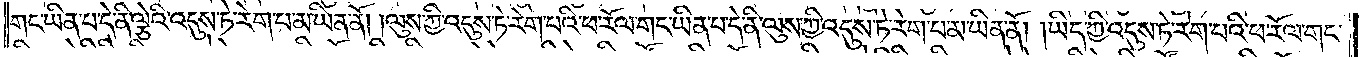གང་ཡིན་པ་དེ་ནི་ལྕེའི་འདུས་ཏེ་རེག་པ་མ་ཡིན་ནོ། །ལུས་ཀྱི་འདུས་ཏེ་རེག་པའི་ཕ་རོལ་གང་ཡིན་པ་དེ་ནི་ལུས་ཀྱི་འདུས་ཏེ་རེག་པ་མ་ཡིན་ནོ། །ཡིད་ཀྱི་འདུས་ཏེ་རེག་པའི་ཕ་རོལ་གང་
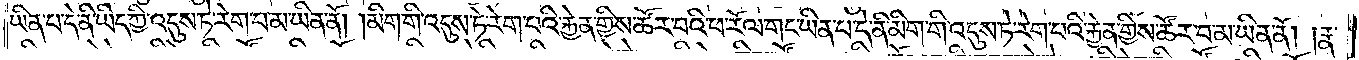ཡིན་པ་དེ་ནི་ཡིད་ཀྱི་འདུས་ཏེ་རེག་པ་མ་ཡིན་ནོ། །མིག་གི་འདུས་ཏེ་རེག་པའི་རྐྱེན་གྱིས་ཚོར་བའི་ཕ་རོལ་གང་ཡིན་པ་དེ་ནི་མིག་གི་འདུས་ཏེ་རེག་པའི་རྐྱེན་གྱིས་ཚོར་བ་མ་ཡིན་ནོ། །རྣ་
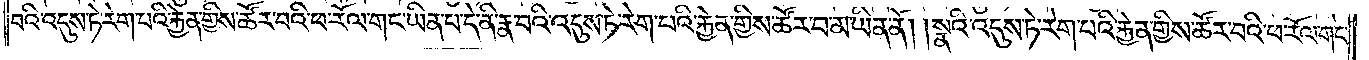བའི་འདུས་ཏེ་རེག་པའི་རྐྱེན་གྱིས་ཚོར་བའི་ཕ་རོལ་གང་ཡིན་པ་དེ་ནི་རྣ་བའི་འདུས་ཏེ་རེག་པའི་རྐྱེན་གྱིས་ཚོར་བ་མ་ཡིན་ནོ། །སྣའི་འདུས་ཏེ་རེག་པའི་རྐྱེན་གྱིས་ཚོར་བའི་ཕ་རོལ་གང་
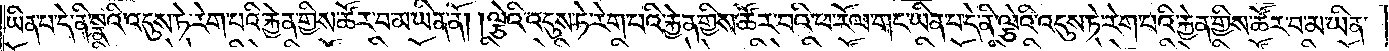ཡིན་པ་དེ་ནི་སྣའི་འདུས་ཏེ་རེག་པའི་རྐྱེན་གྱིས་ཚོར་བ་མ་ཡིན་ནོ། །ལྕེའི་འདུས་ཏེ་རེག་པའི་རྐྱེན་གྱིས་ཚོར་བའི་ཕ་རོལ་གང་ཡིན་པ་དེ་ནི་ལྕེའི་འདུས་ཏེ་རེག་པའི་རྐྱེན་གྱིས་ཚོར་བ་མ་ཡིན་
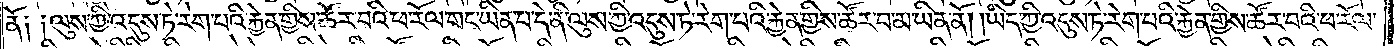ནོ༑ ༑ལུས་ཀྱི་འདུས་ཏེ་རེག་པའི་རྐྱེན་གྱིས་ཚོར་བའི་ཕ་རོལ་གང་ཡིན་པ་དེ་ནི་ལུས་ཀྱི་འདུས་ཏེ་རེག་པའི་རྐྱེན་གྱིས་ཚོར་བ་མ་ཡིན་ནོ། །ཡིད་ཀྱི་འདུས་ཏེ་རེག་པའི་རྐྱེན་གྱིས་ཚོར་བའི་ཕ་རོལ་
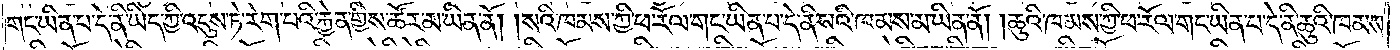གང་ཡིན་པ་དེ་ནི་ཡིད་ཀྱི་འདུས་ཏེ་རེག་པའི་རྐྱེན་གྱིས་ཚོར་བ་མ་ཡིན་ནོ། །སའི་ཁམས་ཀྱི་ཕ་རོལ་གང་ཡིན་པ་དེ་ནི་སའི་ཁམས་མ་ཡིན་ནོ། །ཆུའི་ཁམས་ཀྱི་ཕ་རོལ་གང་ཡིན་པ་དེ་ནི་ཆུའི་ཁམས་
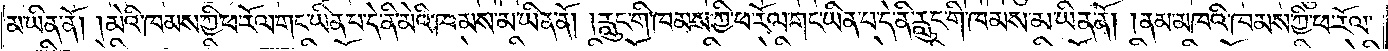མ་ཡིན་ནོ། །མེའི་ཁམས་ཀྱི་ཕ་རོལ་གང་ཡིན་པ་དེ་ནི་མེའི་ཁམས་མ་ཡིན་ནོ། །རླུང་གི་ཁམས་ཀྱི་ཕ་རོལ་གང་ཡིན་པ་དེ་ནི་རླུང་གི་ཁམས་མ་ཡིན་ནོ། །ནམ་མཁའི་ཁམས་ཀྱི་ཕ་རོལ་
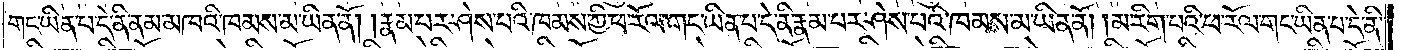གང་ཡིན་པ་དེ་ནི་ནམ་མཁའི་ཁམས་མ་ཡིན་ནོ། །རྣམ་པར་ཤེས་པའི་ཁམས་ཀྱི་ཕ་རོལ་གང་ཡིན་པ་དེ་ནི་རྣམ་པ་ཤེས་པའི་ཁམས་མ་ཡིན་ནོ། །མ་རིག་པའི་ཕ་རོལ་གང་ཡིན་པ་དེ་ནི་
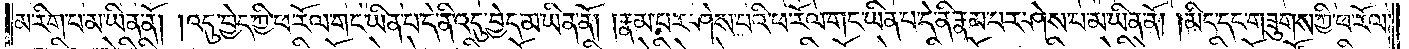མ་རིག་པ་མ་ཡིན་ནོ། །འདུ་བྱེད་ཀྱི་ཕ་རོལ་གང་ཡིན་པ་དེ་ནི་འདུ་བྱེད་མ་ཡིན་ནོ། །རྣམ་པར་ཤེས་པའི་ཕ་རོལ་གང་ཡིན་པ་དེ་ནི་རྣམ་པར་ཤེས་པ་མ་ཡིན་ནོ། མིང་དང་གཟུགས་ཀྱི་ཕ་རོལ་
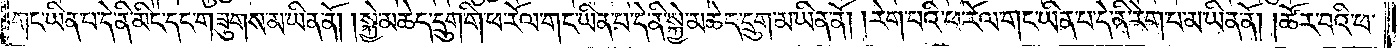གང་ཡིན་པ་དེ་ནི་མིང་དང་གཟུགས་མ་ཡིན་ནོ། །སྐྱེ་མཆེད་དྲུག་གི་ཕ་རོལ་གང་ཡིན་པ་དེ་ནི་སྐྱེ་མཆེད་དྲུག་མ་ཡིན་ནོ། །རེག་པའི་ཕ་རོལ་གང་ཡིན་པ་དེ་ནི་རེག་པ་མ་ཡིན་ནོ། །ཚོར་བའི་ཕ་
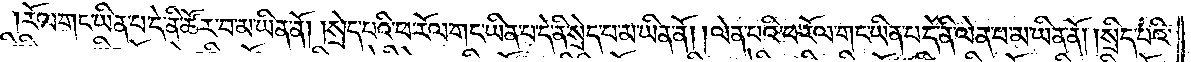རོལ་གང་ཡིན་པ་དེ་ནི་ཚོར་བ་མ་ཡིན་ནོ། །སྲེད་པའི་ཕ་རོལ་གང་ཡིན་པ་དེ་ནི་སྲེད་པ་མ་ཡིན་ནོ། །ལེན་པའི་ཕ་རོལ་གང་ཡིན་པ་དེ་ནི་ལེན་པ་མ་ཡིན་ནོ། །སྲིད་པའི་
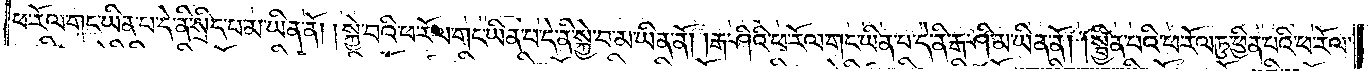ཕ་རོལ་གང་ཡིན་པ་དེ་ནི་སྲིད་པ་མ་ཡིན་ནོ། །སྐྱེ་བའི་ཕ་རོལ་གང་ཡིན་པ་དེ་ནི་སྐྱེ་བ་མ་ཡིན་ནོ། །རྒ་ཤིའི་ཕ་རོལ་གང་ཡིན་པ་དེ་ནི་རྒ་ཤི་མ་ཡིན་ནོ། །སྦྱིན་པའི་ཕ་རོལ་ཏུ་ཕྱིན་པའི་ཕ་རོལ་
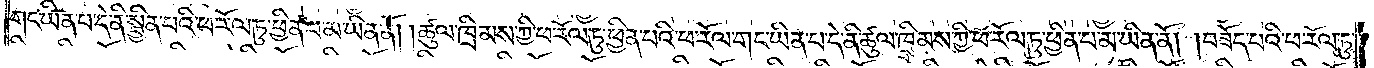གང་ཡིན་པ་དེ་ནི་སྦྱིན་པའི་ཕ་རོལ་ཏུ་ཕྱིན་པ་མ་ཡིན་ནོ། །ཚུལ་ཁྲིམས་ཀྱི་ཕ་རོལ་ཏུ་ཕྱིན་པའི་ཕ་རོལ་གང་ཡིན་པ་དེ་ནི་ཚུལ་ཁྲིམས་ཀྱི་ཕ་རོལ་ཏུ་ཕྱིན་པ་མ་ཡིན་ནོ། །བཟོད་པའི་ཕ་རོལ་ཏུ་
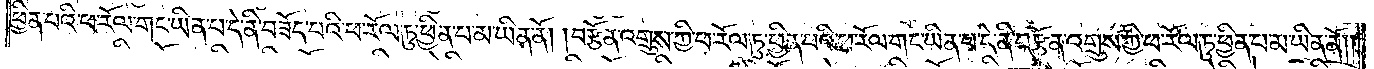ཕྱིན་པའི་ཕ་རོལ་གང་ཡིན་པ་དེ་ནི་བཟོད་པའི་ཕ་རོལ་ཏུ་ཕྱིན་པ་མ་ཡིན་ནོ། །བརྩོན་འགྲུས་ཀྱི་ཕ་རོལ་ཏུ་ཕྱིན་པའི་ཕ་རོལ་གང་ཡིན་པ་དེ་ནི་བརྩོན་འགྲུས་ཀྱི་ཕ་རོལ་ཏུ་ཕྱིན་པ་མ་ཡིན་ནོ། །
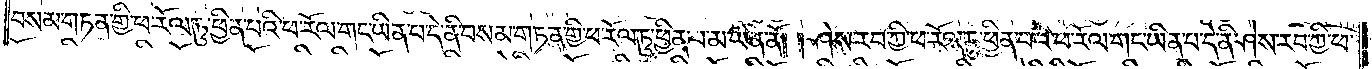བསམ་གཏན་གྱི་ཕ་རོལ་ཏུ་ཕྱིན་པའི་ཕ་རོལ་གང་ཡིན་པ་དེ་ནི་བསམ་གཏན་གྱི་ཕ་རོལ་ཏུ་ཕྱིན་པ་མ་ཡིན་ནོ། །ཤེས་རབ་ཀྱི་ཕ་རོལ་ཏུ་ཕྱིན་པའི་ཕ་རོལ་གང་ཡིན་པ་དེ་ནི་ཤེས་རབ་ཀྱི་ཕ་
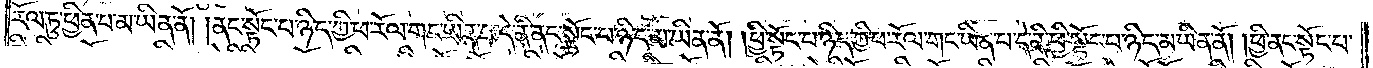རོལ་ཏུ་ཕྱིན་པ་མ་ཡིན་ནོ། །ནང་སྟོང་པ་ཉིད་ཀྱི་ཕ་རོལ་གང་ཡིན་པ་དེ་ནི་ནང་སྟོང་པ་ཉིད་མ་ཡིན་ནོ། །ཕྱི་སྟོང་པ་ཉིད་ཀྱི་ཕ་རོལ་གང་ཡིན་པ་དེ་ནི་ཕྱི་སྟོང་པ་ཉིད་མ་ཡིན་ནོ། །ཕྱི་ནང་སྟོང་པ་
